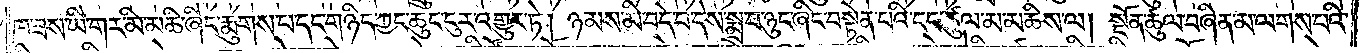ཁ་ཟས་ཡི་གར་མི་མཆི་ཞིང་རྨུགས་པ་དང་གཉིད་ཀྱང་ཆུང་ངུར་འགྱུར་ཏེ། ཉམས་མི་བདེ་བ་དེས་སྨྲ་བ་ཉུང་ཞིང་བསྟེན་པའི་ངང་ཚུལ་མ་མཆིས་ལ། སྔོན་ཚུལ་བཞིན་མ་ལགས་པའི་
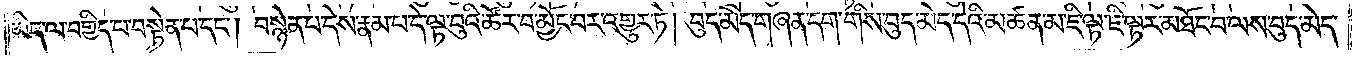ཡིད་ལ་བགྱིད་པ་བསྟེན་པ་དང༌། བསྙེན་པ་དེས་རྣམ་པ་དེ་ལྟ་བུའི་ཚོར་བ་མྱོང་བར་འགྱུར་ཏེ། བུད་མེད་གཞན་དག་གིས་བུད་མེད་དེའི་མཚན་མ་ཇི་ལྟ་ཇི་ལྟར་མཐོང་བ་ལས་བུད་མེད་
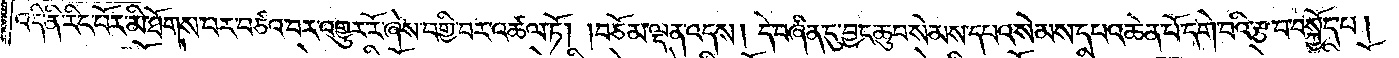འདི་ནི་རིང་པོར་མི་ཐོགས་པར་བཙའ་བར་འགྱུར་རོ་ཞེས་བགྱི་བར་འཚལ་ཏོ། །བཅོམ་ལྡན་འདས། དེ་བཞིན་དུ་བྱང་ཆུབ་སེམས་དཔའ་སེམས་དཔའ་ཆེན་པོ་དགེ་བའི་རྩ་བ་བསྐྱོད་པ།
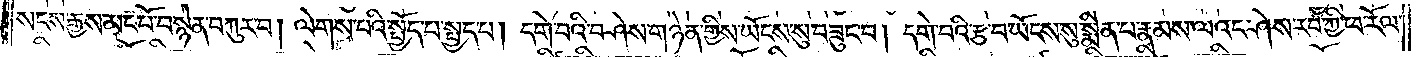སངས་རྒྱས་མང་པོ་བསྙེན་བཀུར་བ། ལེགས་པའི་སྤྱོད་པ་སྤྱད་པ། དགེ་བའི་བཤེས་གཉེན་གྱིས་ཡོངས་སུ་བཟུང་བ། དགེ་བའི་རྩ་བ་ཡོངས་སུ་སྨིན་པ་རྣམས་ལའང་ཤེས་རབ་ཀྱི་ཕ་རོལ་
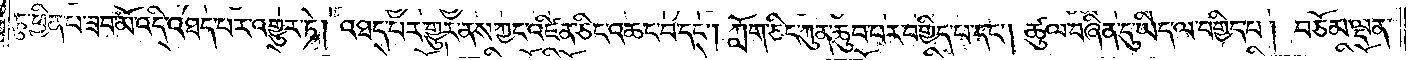ཏུ་ཕྱིན་པ་ཟབ་མོ་འདི་འཐད་པར་འགྱུར་ཏེ། འཐད་པར་གྱུར་ནས་ཀྱང་འཛིན་ཅིང་འཆང་བ་དང༌། ཀློག་ཅིང་ཀུན་ཆུབ་པར་བགྱིད་པ་དང༌། ཚུལ་བཞིན་དུ་ཡིད་ལ་བགྱིད་པ། བཅོམ་ལྡན་
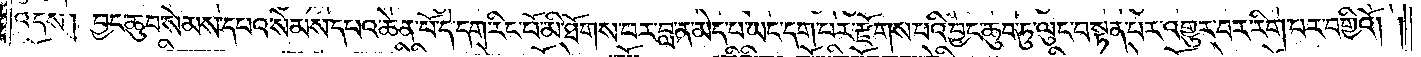འདས། བྱང་ཆུབ་སེམས་དཔའ་སེམས་དཔའ་ཆེན་པོ་དེ་དག་རིང་པོ་མི་ཐོགས་པར་བླ་ན་མེད་པ་ཡང་དག་པར་རྫོགས་པའི་བྱང་ཆུབ་ཏུ་ལུང་བསྟན་པར་འགྱུར་བར་རིག་པར་བགྱིའོ། །
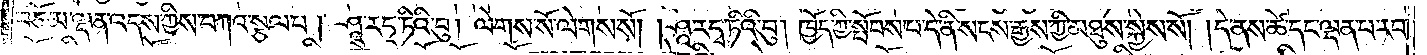བཅོམ་ལྡན་འདས་ཀྱིས་བཀའ་སྩལ་པ། ཤཱ་ར་དྭ་ཏིའི་བུ། ལེགས་སོ་ལེགས་སོ། །ཤཱ་ར་དྭ་ཏིའི་བུ། ཁྱོད་ཀྱི་སྤོབས་པ་དེ་ནི་སངས་རྒྱས་ཀྱི་མཐུས་སྐྱེས་སོ། །དེ་ནས་ཚེ་དང་ལྡན་པ་རབ་
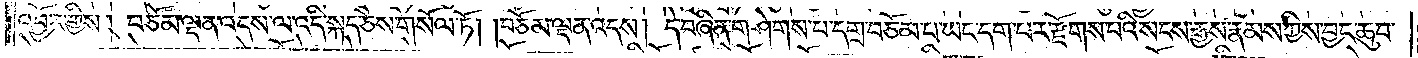འབྱོར་གྱིས། བཅོམ་ལྡན་འདས་ལ་འདི་སྐད་ཅེས་གསོལ་ཏོ། །བཅོམ་ལྡན་འདས། དེ་བཞིན་གཤེགས་པ་དགྲ་བཅོམ་པ་ཡང་དག་པར་རྫོགས་པའི་སངས་རྒྱས་རྣམས་ཀྱིས་བྱང་ཆུབ་
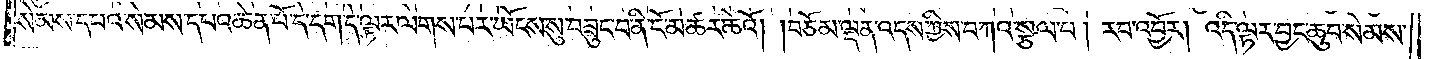སེམས་དཔའ་སེམས་དཔའ་ཆེན་པོ་དེ་དག་དེ་ལྟར་ལེགས་པར་ཡོངས་སུ་བཟུང་བ་ནི་ངོ་མཚར་ཆེའོ། །བཅོམ་ལྡན་འདས་ཀྱིས་བཀའ་སྩལ་པ། རབ་འབྱོར། འདི་ལྟར་བྱང་ཆུབ་སེམས་
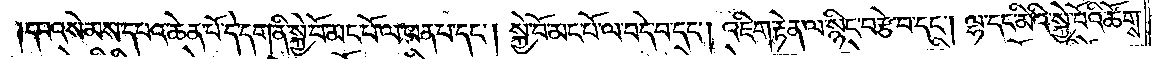དཔའ་སེམས་དཔའ་ཆེན་པོ་དེ་དག་ནི་སྐྱེ་བོ་མང་པོ་ལ་ཕན་པ་དང༌། སྐྱེ་བོ་མང་པོ་ལ་བདེ་བ་དང༌། འཇིག་རྟེན་ལ་སྙིང་བརྩེ་བ་དང༌། ལྷ་དང་མིའི་སྐྱེ་བོའི་ཚོགས་
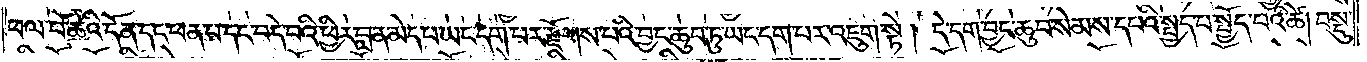ཕལ་པོ་ཆེའི་དོན་དང་ཕན་པ་དང་བདེ་བའི་ཕྱིར་བླ་ན་མེད་པ་ཡང་དག་པར་རྫོགས་པའི་བྱང་ཆུབ་ཏུ་ཡང་དག་པར་འཇུག་སྟེ། དེ་དག་བྱང་ཆུབ་སེམས་དཔའི་སྤྱད་པ་སྤྱོད་པའི་ཚེ། བསྡུ་
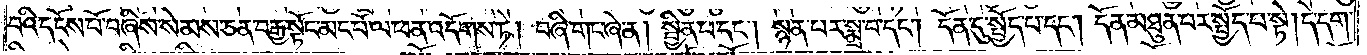བའི་དངོས་པོ་བཞིས་སེམས་ཅན་བརྒྱ་སྟོང་མང་པོ་ལ་ཕན་འདོགས་ཏེ། བཞི་གང་ཞེ་ན། སྦྱིན་པ་དང༌། སྙན་པར་སྨྲ་བ་དང༌། དོན་དུ་སྤྱོད་པ་དང༌། དོན་མཐུན་པར་སྤྱོད་པ་སྟེ། དེ་དག་
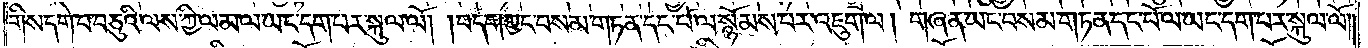གིས་དགེ་བ་བཅུའི་ལས་ཀྱི་ལམ་ལ་ཡང་དག་པར་སྐུལ་ལོ། །བདག་ཀྱང་བསམ་གཏན་དང་པོ་ལ་སྙོམས་པར་འཇུག་ལ། གཞན་ཡང་བསམ་གཏན་དང་པོ་ལ་ཡང་དག་པར་སྐུལ་ལོ། །
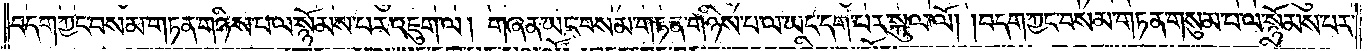བདག་ཀྱང་བསམ་གཏན་གཉིས་པ་ལ་སྙོམས་པར་འཇུག་ལ། གཞན་ཡང་བསམ་གཏན་གཉིས་པ་ལ་ཡང་དག་པར་སྐུལ་ལོ། །བདག་ཀྱང་བསམ་གཏན་གསུམ་པ་ལ་སྙོམས་པར་
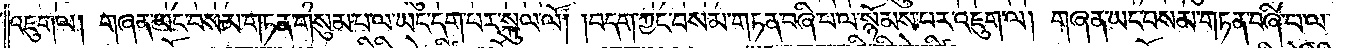འཇུག་ལ། གཞན་ཡང་བསམ་གཏན་གསུམ་པ་ལ་ཡང་དག་པར་སྐུལ་ལོ། །བདག་ཀྱང་བསམ་གཏན་བཞི་པ་ལ་སྙོམས་པར་འཇུག་ལ། གཞན་ཡང་བསམ་གཏན་བཞི་པ་ལ་
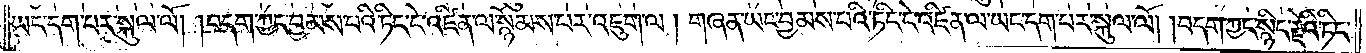ཡང་དག་པར་སྐུལ་ལོ། །བདག་ཀྱང་བྱམས་པའི་ཏིང་ངེ་འཛིན་ལ་སྙོམས་པར་འཇུག་ལ། གཞན་ཡང་བྱམས་པའི་ཏིང་ངེ་འཛིན་ལ་ཡང་དག་པར་སྐུལ་ལོ། །བདག་ཀྱང་སྙིང་རྗེའི་ཏིང་
